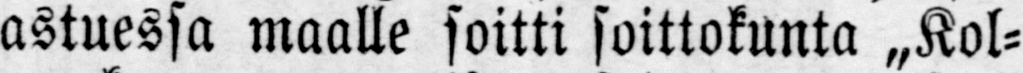astuessa maalle soitti soittokunta „Kol-
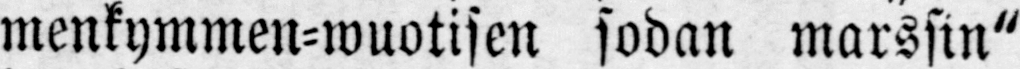menkymmen-wuotisen sodan marssin"
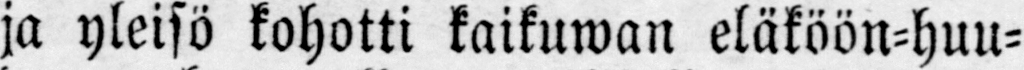ja yleisö kohotti kaikuwan eläköön-huu-
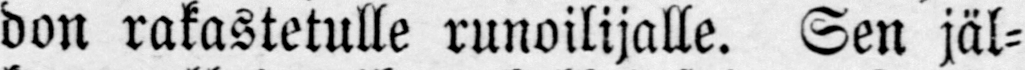don rakastetulle runoilijalle. Sen jäl-
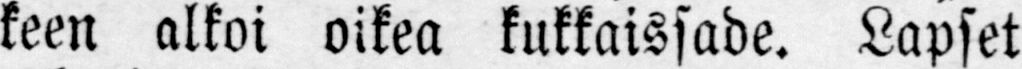keen alkoi oikea kukkaissade. Lapset
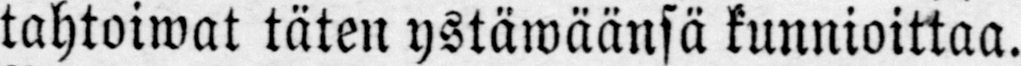tahtoiwat täten ystäwäänsä kunnioittaa.
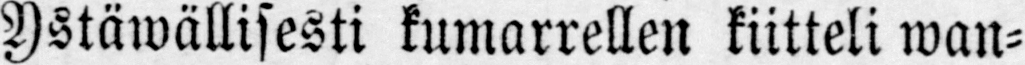Ystäwällisesti kumarrellen kiitteli wan-
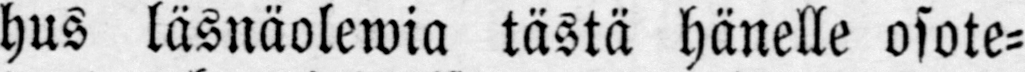hus läsnäolewia tästä hänelle osote-
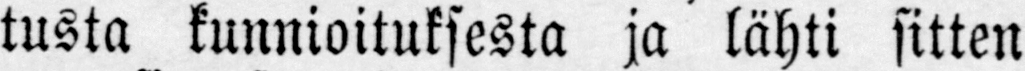tusta kunnioituksesta ja lähti sitten
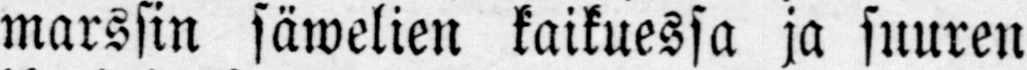marssin säwelien kaikuessa ja suuren
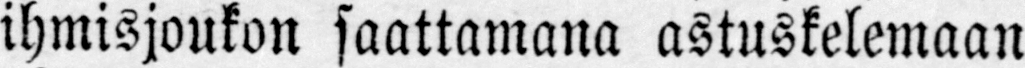ihmisjoukon saattamana astuskelemaan
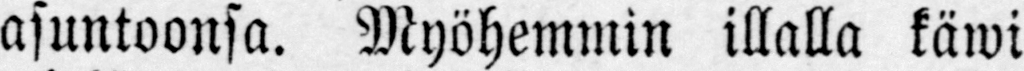asuntoonsa. Myöhemmin illalla käwi
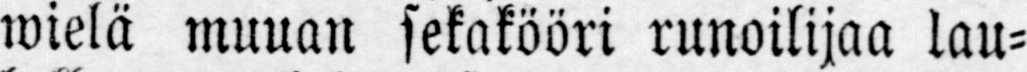wielä muuan sekakööri runoilijaa lau-
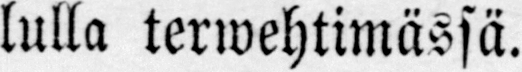lulla terwehtimässä.
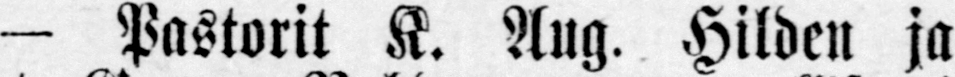— Pastorit K. Aug. Hilden ja
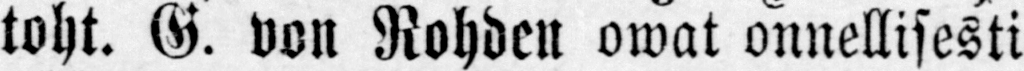toht. G. von Rohden owat onnellisesti
